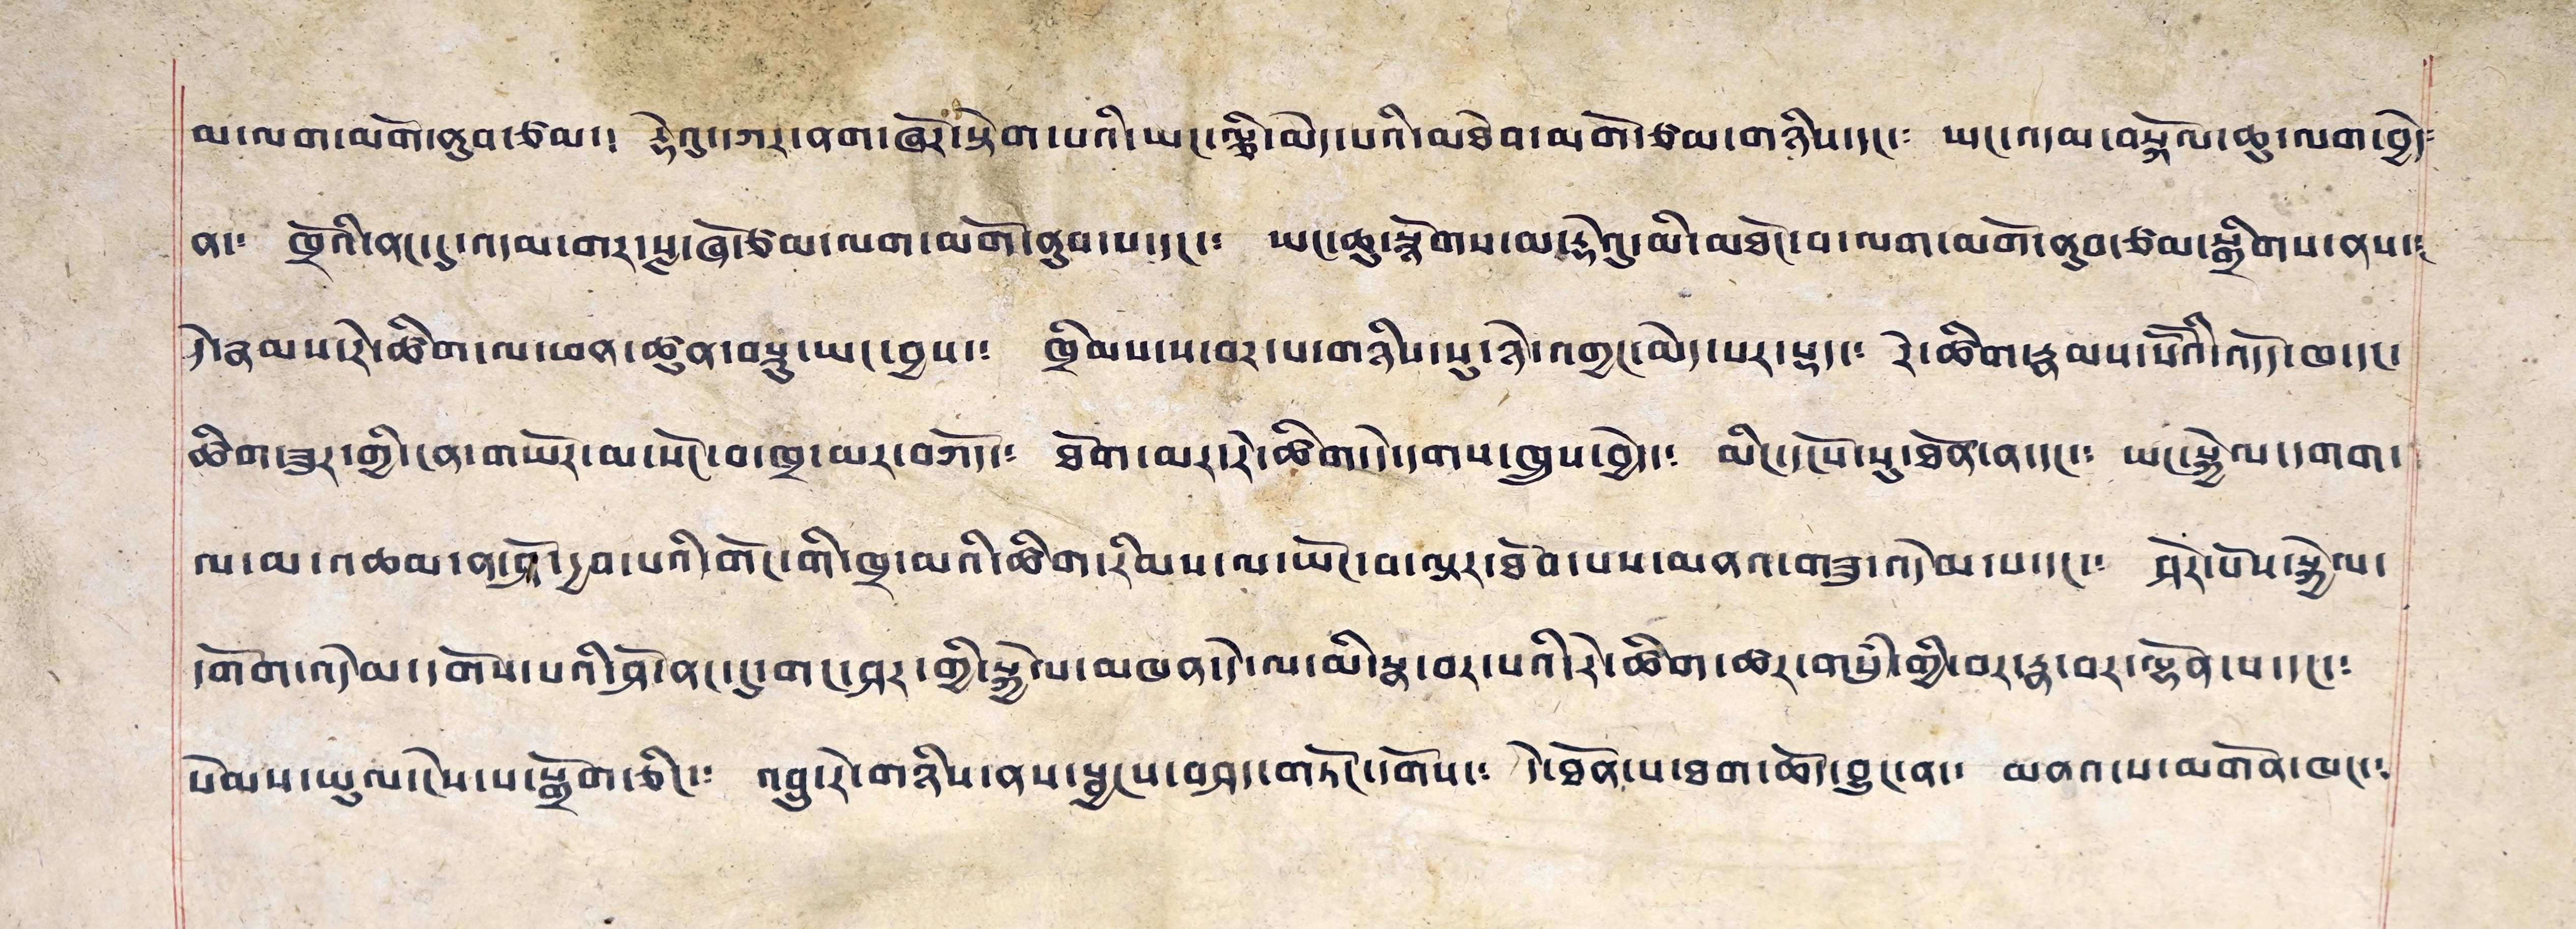མ་ལག་མགོ་ནུབ་ཙམ་༴ རྡེའུ་དཀར་ནག་ཞོར་སྟེག་པའི་ཡང་ལྕི་མེད་པའི་མཐེབ་མགོ་ཙམ་གཉིས་དང་༴ ཡང་འདམ་བསྐོལ་ཆུ་ལག་བྱེད༴
ན་༴ ཁྲོའི་ནང་དུ་འདམ་གར་སླ་ཞོ་ཙམ་ལག་མགོ་ནུབ་པ་དང་༴ ཡང་ཆུ་སྙོགས་མ་རྡེའུ་མི་མཐོང་བ་ལག་མགོ་ནུབ་ཙམ་སྒྲིགས་ནས་༴
དེ་རྣམས་རེ་ཚིག་ལ་ཕན་ཚུན་བསྡུ་ཡང་བྱས་༴ ཁྲིམས་ས་བར་པ་གཉིས་སུ་ཉེ་འགྱང་མེད་པར་སྡད་༴ རེ་ཚིག་རྣམས་སོ་སོའི་འདོད་ཁ་དང་
ཚིག་ཟུར་གྱི་ངན་གཡོར་མ་སོང་བ་ཁྲ་མར་བཀོད་༴ ཐོག་མར་རེ་ཚིག་དེ་དགས་ཁྲུས་བྱེད་༴ མིང་དངོས་སུ་ཐོན་ན་དང་༴ ཡང་སྐྱེལ་དགག་
ལ་མ་འཆམ་ན་ཤོ་དྱབ་པའི་གོང་གི་ཁྲ་མའི་ཚིག་རིམས་ལ་ཡོང་བ་ལྟར་ཐོབ་པས་མནའ་གཟུ་འདེམ་པ་དང་༴ ཤེར་པོས་སྐྱེལ་
དགོག་འདེམ་དགོས་པའི་ཤོ་ནང་དུ་གང་ཤར་གྱི་སྐྱེལ་མཁན་དེ་ལ་མི་སྣ་བར་པའི་རེ་ཚིག་ཚར་གསུཾ་གྱི་བར་རྣ་བར་ལྷོན་པ་དང་༴
སེམས་ཡུལ་ངེས་པ་སྒྲོག་ཅིང་༴ འབྲུ་རེ་གཉིས་ནས་སྦྱངས་བཤད་གཏོང་དགོས་༴ དེ་ཐོན་པ་ཐག་ཆོད་བྱུང་ན་༴ མནའ་པ་མགོན་ཁང་༴
